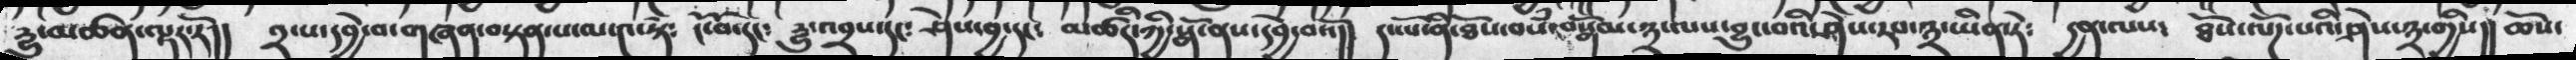དྱུ་མཚན་ལྟར་རོ།། ༢་པ་དབྱེ་བ་གཞན་བསྟན་པ་ལ་༤་སྟེ༴  ངོ་བོ་དང༴  དྱུ་འབྲས་དང༴  ཤེས་བྱ་དང༴  མཚིད་ཀྱི་སྒོ་ནས་དབྱེ་བའོ།།  དང་པོ་ནི་ཐོས་བསཾ་བསྒོམ་༣་ལས་བྱུང་བའི་ཤེས་་རབ་༣་ཡིན་ཏེ༴   དྱན་ལས་  ཐོས་ལོཌ་པའི་ཤེས་༣་གྱིས།། ཆོས་
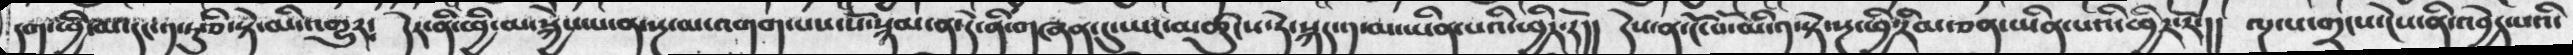དག་ཕྱི་མ་དང་༡་ཏུ་ཅི་སྟེ་མི་འགྱུར༴   དེར་ནི་ཕྱི་མ་སྐྱེས་པ་ན་སྔ་མ་འགག་པས་སོ་སྙམ་ན་དེ་ནི་གཞན་དུ་ཡང་མཚུངས་ཏེ་སྐད་༡་མ་ཡིན་པའི་ཕྱིར་རོ།། དེས་ན་ངོ་བོ་མི་༡་སྟེ་སྔ་ཕྱི་རིམ་ཅན་ཡིན་པའི་ཕྱིར་རོ་།།  ལྔ་པ་གྲངས་ངེས་ནི་འབྱེད་པའི་
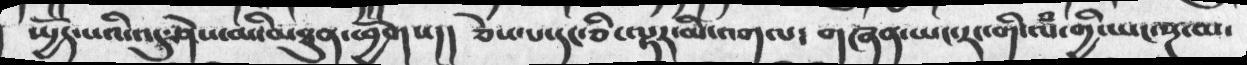སྤྱོད་པའི་འདུ་ཤེས་མི་མཐུན་ཕྱོགས།།  ཅེས་པ་དང་ཅི་ལྟར་མི་འགལ།  གཞན་ཡང་རང་གི་ལཾ་གྱི་ཡང་སྔ་མ་
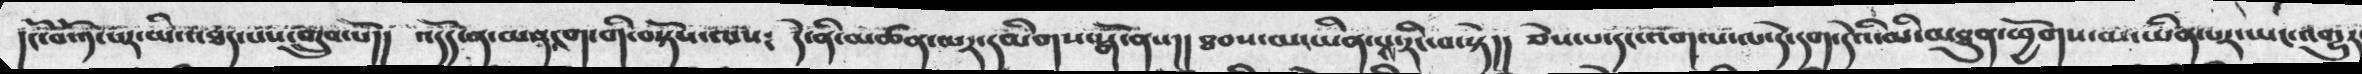།ངོ་བོ་༡་པར་མི་འཐད་པས་གྲུབ་པོ།།  འདོད་ན་མན་ངག་གི་བསྟོས་ལས༴  དེ་ནི་མཚན་མར་དམིགས་སྒོ་ནས།།  ཐབས་མ་ཡིན་པས་རིང་བ་སྟེ།།  ཅེས་པ་དང་འགལ་ལ་དེ་དག་དེའི་མི་མཐུན་ཕྱོགས་མ་ཡིན་པར་ཡང་འགྱུར་
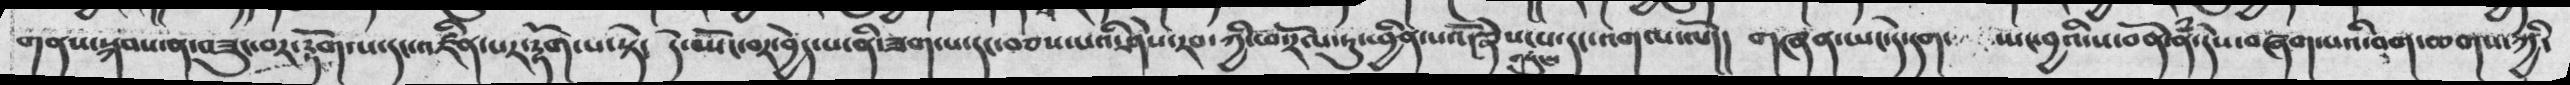གནས་སྐབས་ན་བཟུང་བར་རྟོག་པ་དང་འཛིན་པར་རྟོག་པ་སྟེ༴  དེ་སྤོང་བར་བྱེད་པ་ནི་ཟག་པ་དང་བཅས་པའི་ཤེས་རབ་ཀྱི་ཕ་རོལ་ཏུ་ཕྱིན་པའོ་ཞེས་གསུངས་པ་དང་འགལ་ལོ།།  གཞན་ཡང་དེ་དག་     སྤང་བྱའི་ས་བོན་རྣཾ་དེས་བཞག་པའི་བག་ཆགས་ཀྱི་
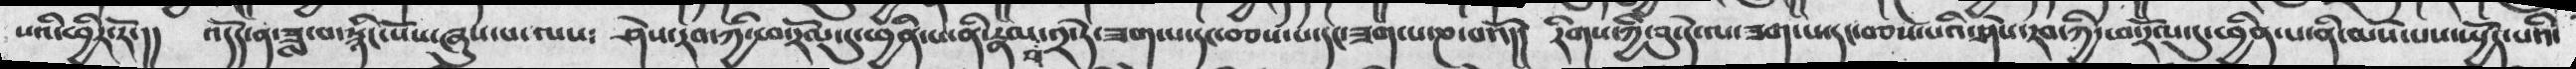པའི་ཕྱིར་རོ་།།  འདོད་ན་ཟླ་བ་སྙིང་པོས་ཞུས་པ་ལས༴  ཤེས་རབ་ཀྱི་ཕ་རོལ་དུ་ཕྱིན་པ་ནི་རྣམ་པ་༢་དེ་ཟག་པ་དང་བཅས་པ་དང་ཟག་པ་ཎ་པའོ།།  རིགས་ཀྱི་བུ་དེ་ལ་ཟག་པ་དང་བཅས་པའི་ཤེས་རབ་ཀྱི་ཕ་རོལ་དུ་ཕྱིན་པ་ནི་མོས་པས་སྤྱོད་པའི་
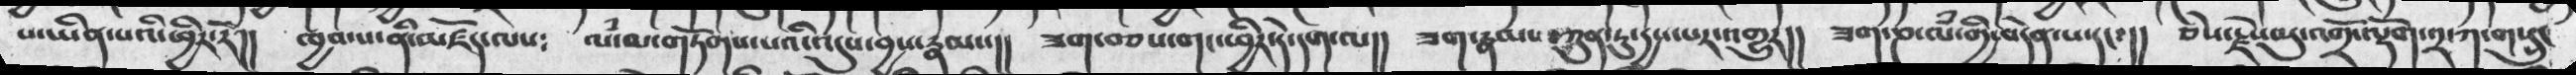པ་ཡིན་པའི་ཕྱིར་རོ།། ཁྱབ་པ་ནི་མཛོད་ལས༴  ལཾ་མ་གཏོགས་པའི་འདུས་བྱས་རྣམས།།  ཟག་བཅས་གང་ཕྱིར་དེ་དག་ལ།།  ཟག་རྣམས་ཀུན་ཏུ་དྱས་པར་འགྱུར།།  ཟག་ཎ་ལཾ་གྱི་བདེན་པ་དང༴།།  ཅེས་རྗེས་སུ་འགྲོ་ལྟོག་༢་ཀ་གསུང
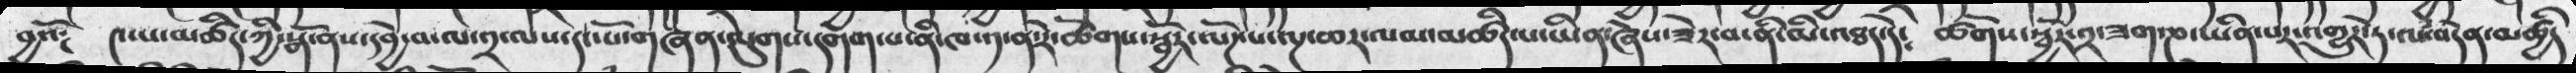བྱའོ༴    ༤་པ་མཚིད་ཀྱི་སྒོ་ནས་དབྱེ་བ་ལ་༢་ལས་དང་པོ་གཞན་ལུགས་དགག་པ་ནི་ཁ་༡་ན་རེ་ཚོགས་སྦྱོར་ལཌོ་པ་ལྔ་ཆར་ལམ་མཚིད་པ་ཡིན་ཞེས་ཟེར་བ་ནི་མི་འཐད་དེ༴    ཚོགས་སྦྱོར་༢་ཟག་ཎ་ཡིན་པར་འགྱུར་ཏེ་ལཾས་བདེན་མཚྱིད
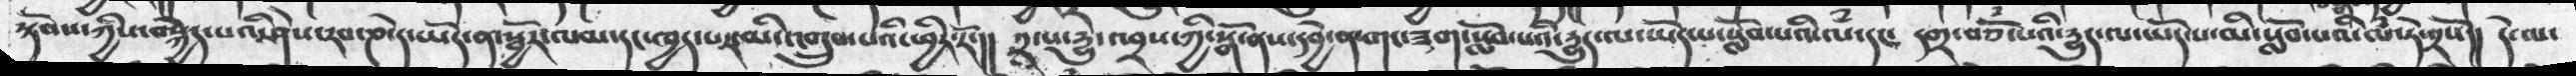སྟོབས་ཀྱིས་བསྐྱེད་པའི་ཤེས་རབ་ཎ་དེ་ཡོད་ན་སྦྱོར་ལམ་དང་ཁྱད་པར་མི་འགྲུབ་པའི་ཕྱིར་རོ་།།  ༢་པ་དྱུ་འབྲས་ཀྱི་སྒོ་ནས་དབྱེ་ན་གང་ཟག་སློབ་པའི་དྱུད་ལ་ཡོད་པ་སློབ་པའི་ལཾ་དང་  དགྲ་བཅོཾ་པའི་དྱུད་ལ་ཡོད་པ་མི་སློབ་པའི་ལཾ་ཏེ་༢སོ།།  དེ་ལ་
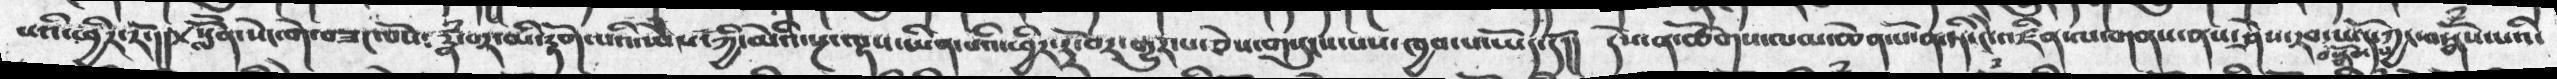པའི་ཕྱིར་རོ་།།  སློོན་སེང་གེ་བཟང་པོས༴ རྣཾ་པར་མི་རྟོག་པའི་སེཾས་ཀྱི་མེའི་སྔ་ལྟས་ཡིན་པའི་ཕྱོར་དྲོ་བར་གྱུར་པ་ཅེས་གསུངས་པས་ཁྱབ་པ་ཡོད་དོ།།  དེས་ན་ཚོགས་ལམ་ཆེན་པོ་ན་ཏེ་ངེས་འཛིན་ལ་གནས་ནས་ཤེས་རབ་བསྒོམ་པ་་ཡོད་ཀྱང་བསྒོཾས་པའི་
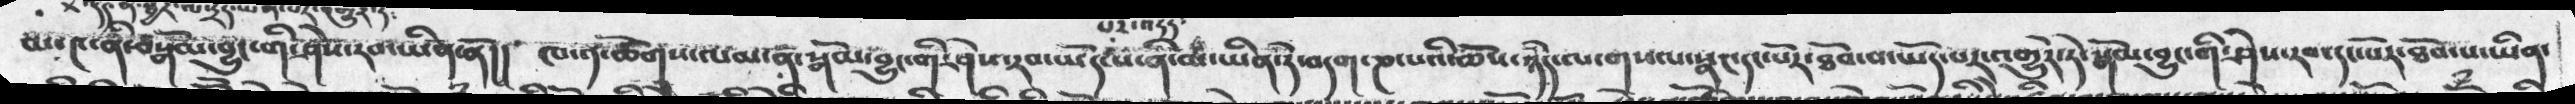མ་༤་ནི་བསྒོམ་བྱུང་གི་ཤེས་རབ་ཡིན་ནོ།།  ཁ་༡་ཚོགས་ལམ་ན་སྒོམ་བྱུང་གི་ཤེས་རབ་ཡོད་པར་འདོད་པ་ནི་མ་ཡིན་ཏེ་བདག་ཎ་པའི་ཆོས་ཉིད་ལ་གསལ་སྣང་དང་པོར་ཐོབ་པ་ཡོད་པར་འགྱུརོ་ཏེ་སྒོམ་བྱུང་གི་ཤེས་རབ་དང་པོར་ཐོབ་པ་ཡིན་
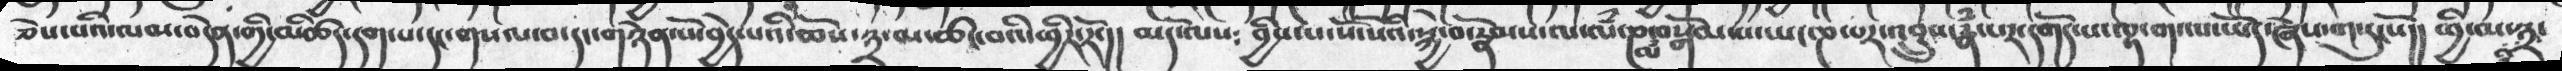ཅེས་པའི་ལམ་བདེན་གི་མཚིད་དག་པ་དང་གསལ་བ་དང་གཉེན་པོ་བྱེད་པའི་ཆོས་༣་མ་ཚང་བའི་ཕྱིར་རོ་།།   མདོ་ལས༴  བྱིས་པ་སོ་སོའི་སྐྱེ་བོ་རྣམས་ལ་ལཾ་ཎ་མ་བསྒོམ་པ་ཡང་ཎ་པར་འབྲུས་རྣཾ་པར་དགོད་པ་ལྟ་ག་ལ་ཡོད་ཞེས་གསུངསོ།།  ཕྱི་མ་༣་
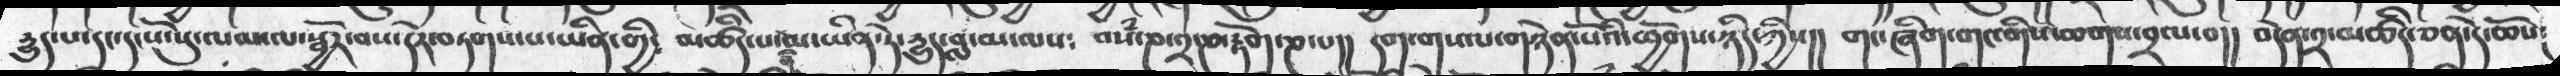རྱུད་པ་དང་དངོས་སུ་ལམ་སྦྱོར་བས་དེར་བཏགས་པ་ཡིན་གྱི་  མཚིད་པ་ནི་མ་ཡིན་ཏེ་རྱུད་བླ་མ་ལས༴  བསཾ་ཎ་༢་ཎ་རྟོག་ཎ་པ།།   དག་གསལ་གཉེན་པོའི་ཕྱོགས་ཉིད་ཀྱིས།།    གང་ཞིག་གང་གིས་ཆགས་བྲལ་བ།།   བདེན་༢་མཚིད་ཅན་དེ་ཆོས་
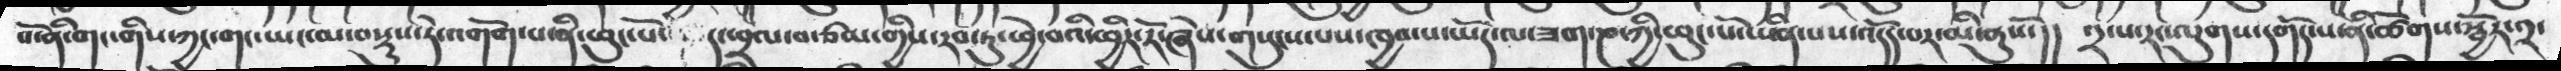པོ་ནི་གང་གིས་ཀྱང་གང་ཡང་མ་བསྟུས་ཏེ་འགོག་པ་ནི་ཕུང་པོ་ དང་བྲལ་བ་ཙམ་གྱིས་རབ་ཏུ་ཕྱེ་བའི་ཕྱིར་རོ་ཞེས་གསུངས་པས་ཁྱབ་པ་ཡོད་ལ་ཟག་ཎ་ཀྱི་ཕུང་པོ་ཡིན་པས་འདོད་པར་མི་ནུསོ།།   ༢་པ་རང་ལུགས་དགོད་པ་ནི་ཚོགས་སྦྱོར་༢་
